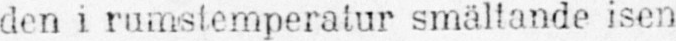den i rumstemperatur smältande isen
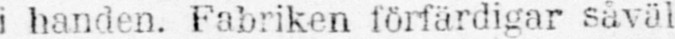i handen. Fabriken förfärdigar såväl
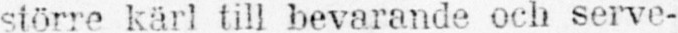större kärl lill bevarande och serve-
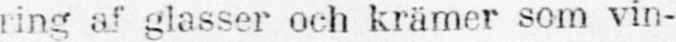ring af glasser och krämer som vin-
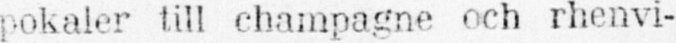pokaler till champagne och rhenvi-
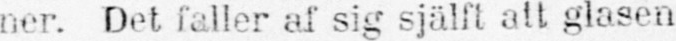ner. Det faller af sig själft att glasen
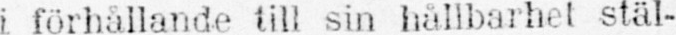i förhållande till sin hållbarhet stäl-
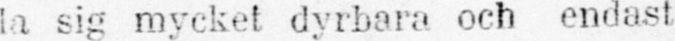la sig mycket dyrbara och endast
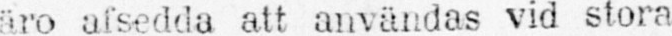äro afsedda att användas vid stora
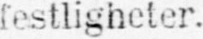festligheter.
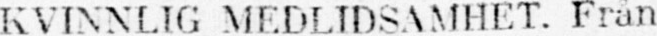KVINNLIG MEDLIDSAMHET. Från
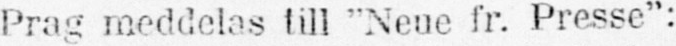Prag meddelas till “Neue fr. Presse“:
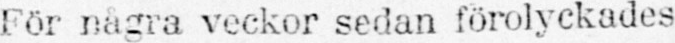För några veckor sedan förolyckades
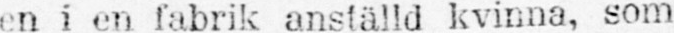en i en fabrik anställd kvinna, som
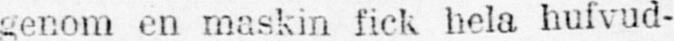genom en maskin fick hela hufvud-
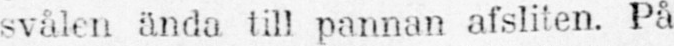svålen ända till pannan afsliten. På
